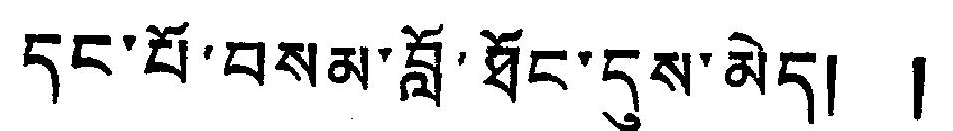དང་པོ་བསམ་བློ་ཐོང་དུས་མེད། །
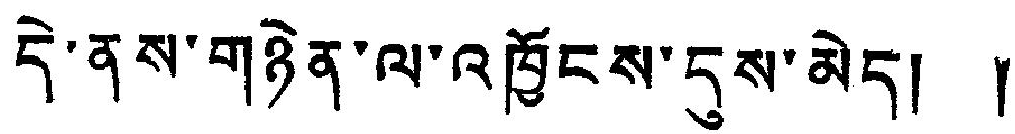དེ་ནས་གཉེན་ལ་འཁྱོངས་དུས་མེད། །
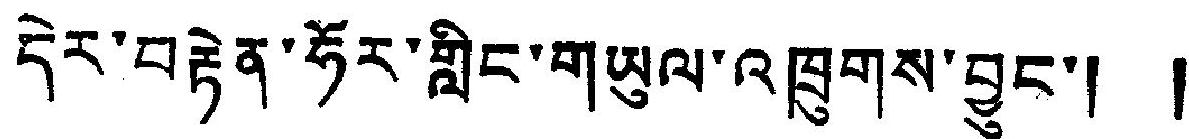དེར་བརྟེན་ཧོར་གླིང་གཡུལ་འཁྲུགས་བྱུང་། །
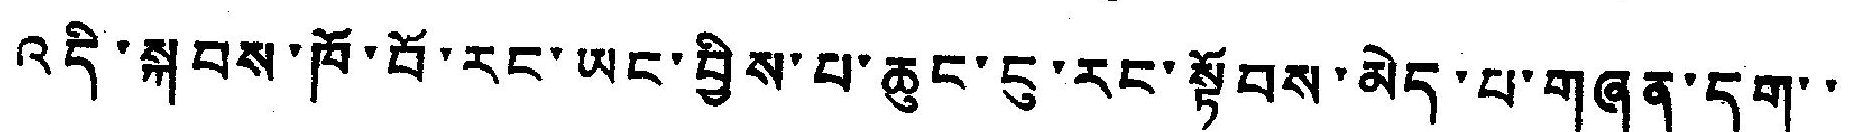འདི་སྐབས་ཁོ་བོ་ཡང་བྱིས་པ་ཆུང་ངུ་རང་སྟོབས་མེད་པ་གཞན་དག་་
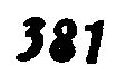381
